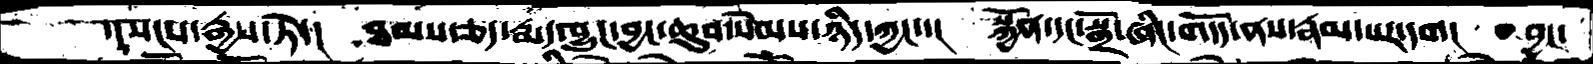དང་སངས་རྒྱས་ཏེ་། ཐམས་ཅད་རྨད་བྱུང་བྱང་ཆུབ་སེམས་ཉིད་ཀྱང་་། སྐྱོན་དང་སྒྲོ་ཞིང་གདོད་ནས་རྣམ་པར་དག། བྱང་
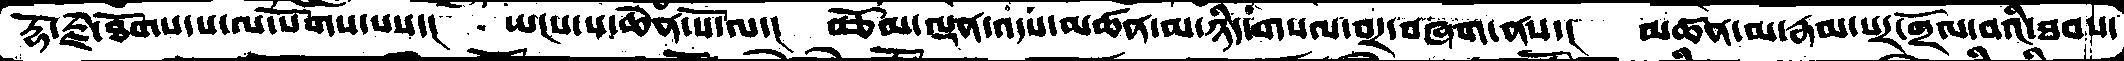རྡོ་རྗེ་ཐོགས་པ་ལ་སོགས་པས་།  ཡངས་པ་ཆེན་པོ་ལ་།  བཅོམ་ལྡན་འདས་མཚན་མ་ཉིད་གསལ་བར་བཞག་ནས་།  མཚན་མ་རྣམ་པར་གྲོལ་བའི་ཐབས་
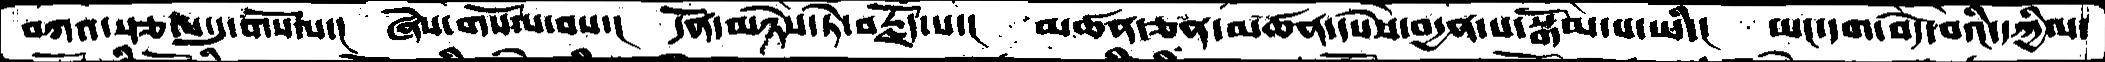བཀའ་སྩལ་དུ་གསོལ་།  ཞེས་གསོལ་བས་།  དོན་མཉེས་ཏེ་བརྗོད་པ་།  མཚན་ཅན་མཚན་དཔེས་བདྱན་པ་སྒོམ་པ་ཡི་།  ཡང་དག་བདེ་བའི་དཀྱིལ་
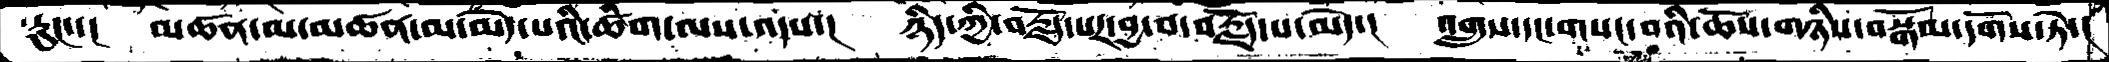རུང་་།  མཚན་མ་མཚན་མ་མེད་པའི་ཚིག་ལས་འདས་།  ཉིད་ཀྱི་བརྗོད་པར་བྱ་བ་བརྗོད་པ་མེད་།  འགྲུས་དང་གསང་བའི་ཆོས་གཉིས་བསྒོམ་དགོས་ཏེ་།
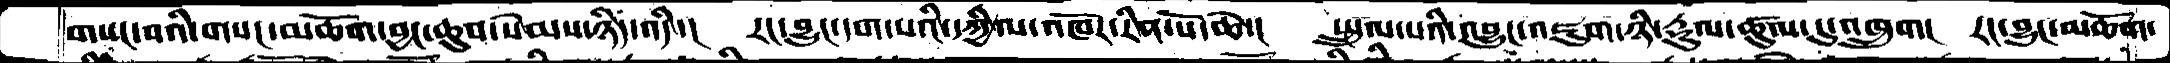གསང་བའི་གསང་མཆོག་བྱང་ཆུབ་སེམས་ཉིད་འདི་། རང་བྱུང་དག་པའི་དཀྱིལ་འཁོར་རིན་པོ་ཆེ་། སྤྲུལ་པའི་འབྱུང་འཇུག་ཉི་རྡུལ་ཚུལ་དུ་འཁྲུག། རང་བྱུང་མཆོག་
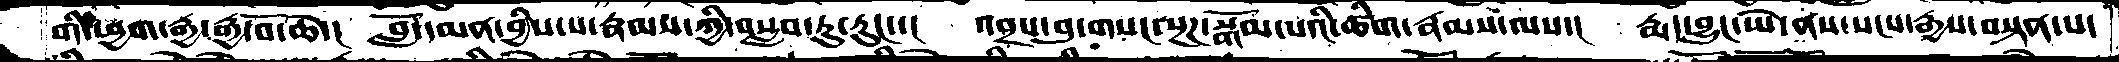གི་ཕྱག་རྒྱ་རྒྱ་བོ་ཆེ་།  བློ་དམན་བྱིས་པ་རྣམས་ཀྱི་བསླབ་ཏུ་རུང་་།  འབྲས་བུ་གསང་སྔཌ་སྒོམ་པའི་ཚིག་རྣམས་ལས་།  རྨད་བྱུང་ཡེ་ནས་སངས་རྒྱས་བསྟན་པ་
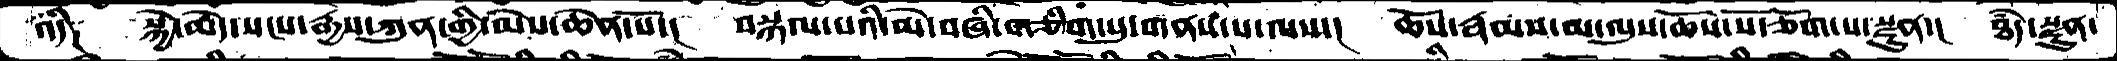འདི༑  སྐྱེ་མེད་སངས་རྒྱས་ཀུན་གྱི་མེས་ཆེན་པོ་།  བསྐལ་པའི་མེ་བཞིན་གཅིག་པུ་གནས་པ་ལས་།  ཆོས་རྣམ་མ་ལུས་ཆོས་སོ་ཅོག་པ་སྫུན་།  ཐཾད་སྫུན་
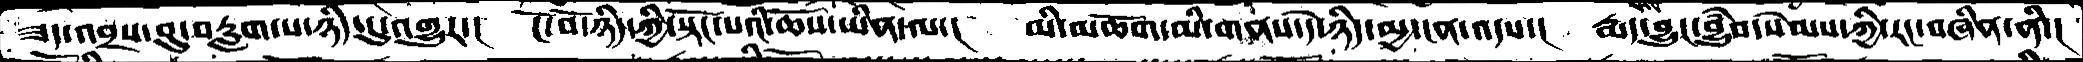ཟད་འབྲས་བུ་བརླག་པ་ཉིད་དུ་འགྱུར་།  ངོ་བོ་ཉིད་ཀྱི་སྟོོང་པའི་ཆོས་ཡིན་ལ་།  མི་མཆོག་མི་གནས་དེ་ཉིད་མྱ་ངན་འདས་།  རྨད་བྱུང་བྱུཾབ་སེམས་ཀྱི་རང་བཞིན་ནི་།
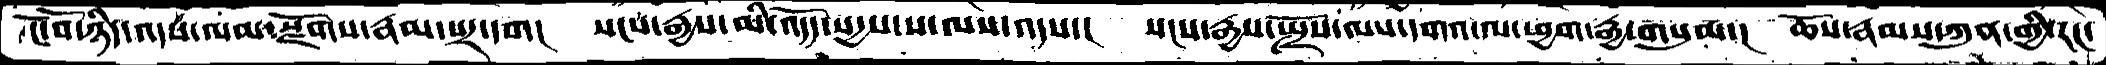ངོ་བོ་ཉིད་འདས་ལམ་སྫོགས་རྣམ་པར་དག།  སངས་རྒྱས་མི་འདོད་སདྱས་ས་ལས་འདས་།  སངས་རྒྱས་སྤྲོས་ལས་དགའ་ལ་ཕྱག་རྒྱ་གསུམ་།  ཆོས་རྣམས་ཀུན་གྱི་རང་
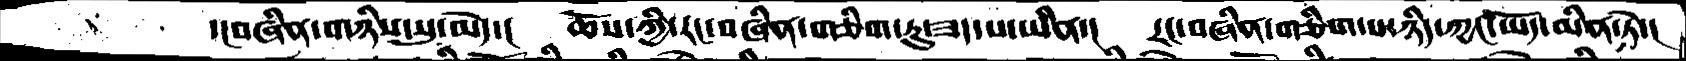་།བཞིན་གཉིས་སུ་མེད་།  ཆོས་ཀྱི་རང་བཞིན་གཅིག་ཏུ་ཟད་པ་ཡིན་།  རང་བཞིན་གཅིག་པ་ཉིད་ཀྱང་ཡོད་མིན་ཏེ་།
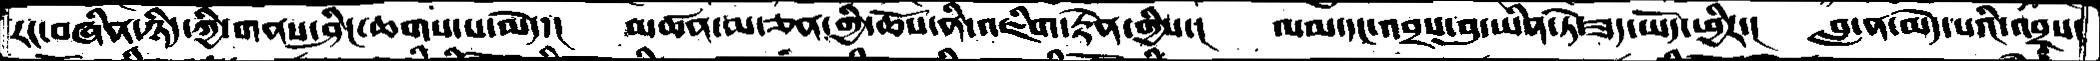རང་བཞིན་ཉིད་ཀྱི་གནས་ཤིང་ཆགས་པ་མེད་།  མཚན་མ་ཅན་གྱི་ཆོས་ནི་འཇིག་རྟེན་གྱིས་།  ལམ་དང་འབྲས་བུ་ཡིན་ཏེ་ཟད་ཡོད་ཕྱིར་།  བླ་ན་མེད་པའི་འབྲས་
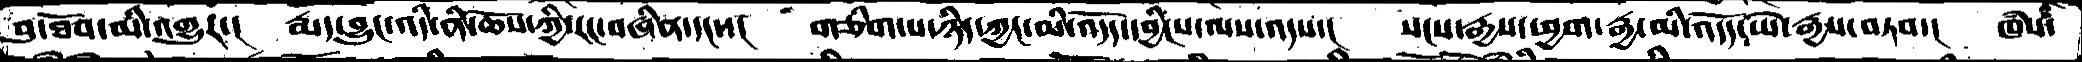བུ་ཐོབ་མི་འགྱུར་།  རྨད་བྱུང་འདི་ནི་ཆོས་ཀྱི་རང་བཞིན་དང་་།  གཅིག་པ་ཉིད་ཀྱང་མི་འདོད་དབྱིངས་ལས་འདས་།  སངས་རྒྱས་ཕྱག་རྒྱ་མི་འདོད་ཡེ་རྒྱས་བཏབ་།  ཁཾས་
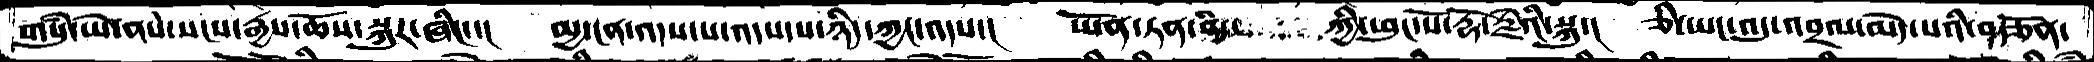གསུཾ་ཡེ་ནས་སངས་རྒྱས་ཆོས་སྐུར་ཞིང་་།  མྱ་ངན་འདས་པ་འདས་པ་ཉིད་ཀྱང་འདས་།   ཡོན་ཏན་ཉིད་     ཀྱི་ཕུང་པོ་རྡོ་རྗེའི་སྐུ་།  ཅི་ཡང་འདུ་འབྲལ་མེད་པའི་བརྩོན་
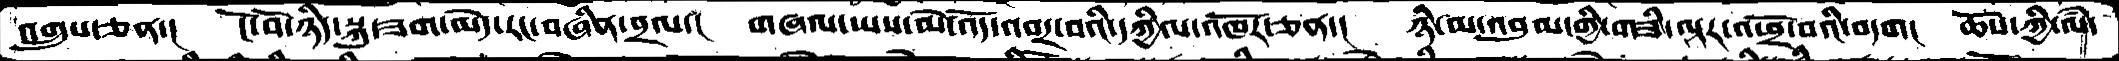འགྲུས་ཅན་།  ངོ་བོ་ཉིད་སྐུ་ཟག་མེད་རང་བཞིན་བྲལ་།   གཞལ་ཡས་མེ་འོད་འབར་བའི་དཀྱིལ་འཁོར་ཅན་།  ཉི་མ་འབུམ་གྱི་གཟི་ལྟར་འཕྲོ་བའི་བདག།  ཆོས་ཀྱི་ལཾ་
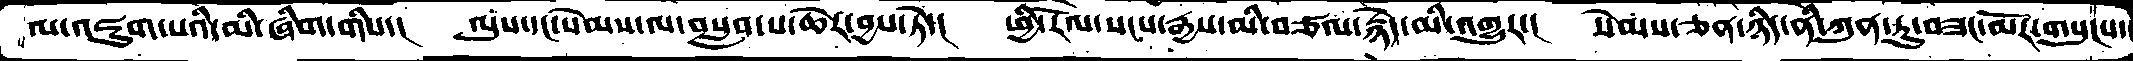ལ་འཇུག་པའི་མི་ཞིག་གིས་།  ལུས་དང་སེམས་ལ་བསླབ་པ་ཆེར་བྱས་ཏེ་།  ཕྱི་རོལ་སངས་རྒྱས་མི་བཙལ་རྙེད་མི་འགྱུར་།  སེམས་ཅན་ཉིད་ནི་ཀུན་ཏུ་བཟང་མོར་གསུངས་
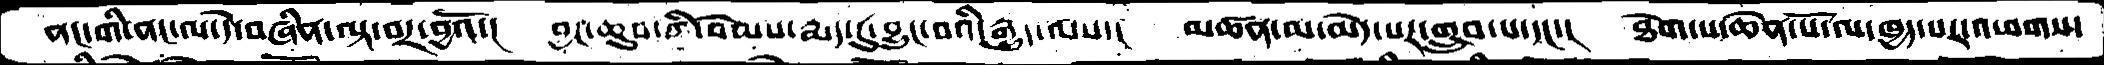ནང་གི་ནང་ལ་དེ་བཞིན་ལྟ་བར་བྱའོ་།  བྱང་ཆུབ་ཀྱི་སེམས་རྨད་དུ་བྱུང་བའི་རྒྱུད་ལས་།  མཚན་མ་མེད་པར་གྲུབ་པ་དང་།  ཐེག་པ་ཆེན་པོ་ལ་ཁྱད་པར་འཕགས་
